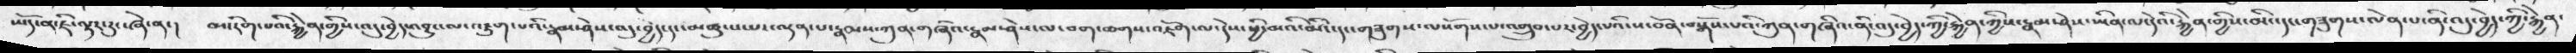ཡོད་ན་ཇི་ལྟར་རུང་ཞེ་ན་།   མ་རིག་པའི་རྐྱེན་གྱིས་འདུ་བྱེད་འབྱུང་ལ་འཇུག་པའི་རྣམ་ཤེས་འདུ་བྱེད་དང་མཚུངས་པར་ལྡན་པ་རྣམས་ཀུན་གཞིའ་རྣམ་ཤེས་ལ་བག་ཆགས་འཇོག་ལ་དེས་ཕྱི་མའི་མིང་གཟུགས་ལསོགས་པ་འགྲུབ་པར་བྱེད་པའི་ས་བོན་བསྒོས་པའི་ཀུན་གཞིའ་ན་འདུ་བྱེད་ཀྱི་རྐྱེན་ཀྱིས་རྣམ་ཤེས་ཡིན་ལ་དེའི་རྐྱེན་གྱིས་མིང་དང་གཟུགས་ལེན་པ་ནི་འདུ་བྱེད་ཀྱི་རྐྱེན་
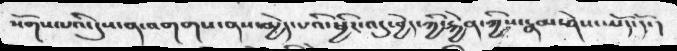སོགས་པའི་དུས་ན་འགགས་ནས་མྱེད་པའི་ཕྱིར་འདུ་བྱེད་ཀྱི་རྐྱེན་ཀྱིས་རྣམ་ཤེས་ཡོད་དོ་།
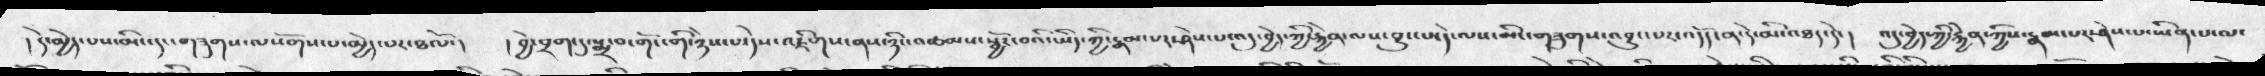། དེ་མྱེད་པས་མིང་དང་གཟུགས་ལསོགས་པ་མྱེད་པར་ཐལོ་།   ། བྱེ་བྲག་དུ་སྨྲ་བ་གོང་གི་ཉེས་པ་དེས་འཇིགས་ནས་ཉིང་འཚམས་སྦྱོར་བའི་ཡིད་ཀྱི་རྣམ་པར་ཤེས་པ་འདུ་བྱེད་ཀྱི་རྐྱེན་ལས་བྱུང་པ་དེ་ལས་མི་ན་དེ་མི་འཐད་དེ་།   འདུ་བྱེད་ཀྱི་རྐྱེན་ཀྱིས་རྣམ་པར་ཤེས་པ་ཡིན་པ་ལ་
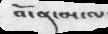བོ་ན་མ་ལ་
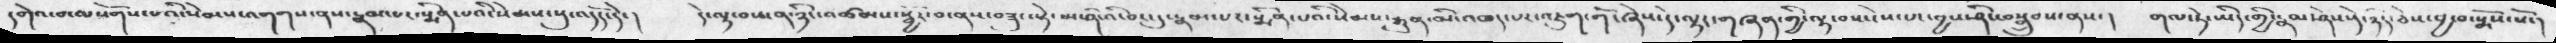དགེའ་བ་ལསོགས་པའི་སེམས་འགགས་ནས་རྣམ་པར་སྨིན་པའི་སེམས་སུ་འདོད་དེ་།   དེ་ལྟ་བས་ན་ཉིང་འཚམས་སྦྱོར་བ་ནས་བཟུང་སྟེ་མ་ཤི་འི་ཅང་དུ་རྣམ་པར་སྨིན་པའི་སེམས་རྒྱུན་མི་འཁད་པར་འཇུག་གོ་ཞེས་དེ་ལྟར་གཞན་གྱི་ལྟ་བས་ངེས་པར་བྱས་ཤིང་བསྒྲུབས་ནས་།  གལ་ཏེ་ཡིད་གྱི་རྣམ་ཤེས་དེ་ཉིད་ཅེས་བྱ་བ་སྨོས་སོ་།
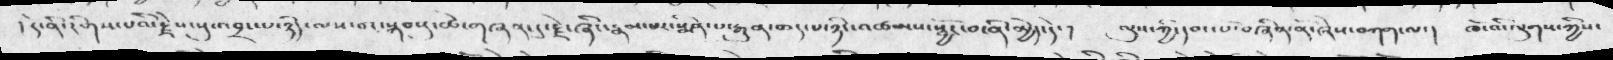།དེ་ནི་རིགས་པི་རྗེས་སུ་འབྲང་པ་ཉིད་ལས་བར་སྐབསུ་ཚེ་གཞན་དུ་རྗེ་ཞིང་རྣམ་པར་སྨིན་པ་རྒྱུན་ཆད་པ་ཉིང་འཚམས་སྦྱོར་བ་ནི་མྱེད་དེ་།  ལུས་ཀྱི་དབང་པོ་བཞིན་ནོ་ཞེས་བཀག་ལ་།  ཁོ་འི་ལུགས་ཀྱིས་
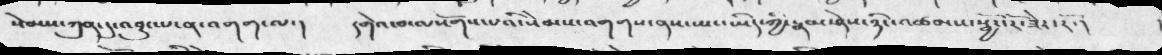སེམས་ཀུན་དུ་འབྱུང་པ་ན་འགག་ལ་།   དགེའ་བ་ལསོགས་པའི་སེམས་འགག་ནས་ཡང་ཡིད་ཀྱི་རྣམ་ཤེས་ཉིང་འཚམས་སྦྱོར་རོ་ཟེར་རོ་།
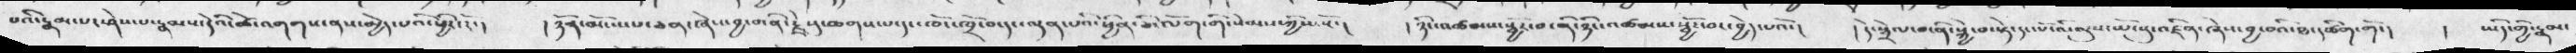པའི་རྣམ་པར་ཤེས་པ་རྣམས་དེའི་ཚེ་འགགས་ནས་མྱེད་པའི་ཕྱིར་རོ་།  ། ཉོན་མོངས་པ་ཅན་ཞེས་བྱ་བ་ནི་རྗེསུ་ཆགས་པ་དང་ཁོང་ཁྲོ་བ་དང་ལྡན་པའི་ཕྱིན་ཅི་ལོག་གི་སེམས་ཀྱིས་སོ་།  ཉིང་འཚམས་སྦྱོར་བ་ནི་ཉིང་འཚམས་སྦྱོར་བར་བྱེད་པའོ་།   ། དེ་སྦྲེལ་བ་ནི་སྐྱེ་བ་སྟེ་དང་པོ་འི་ལུས་ཡོངསུ་འཛིན་ཞེས་བྱ་བའི་ཐ་དཚིག་གོ་།   ། ཡིད་གྱི་རྣམ་
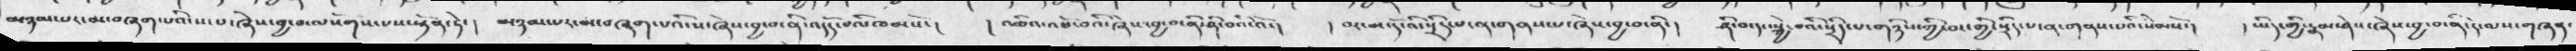མཉམ་པར་མ་བཞག་པའི་ས་པ་ཞེས་བྱ་བ་ལསོགས་པས་སྟོན་ཏེ་།   མཉམ་པར་མ་བཞག་པའི་ས་ཞེས་བྱ་བ་ནི་འདོད་པའི་ཁམསོ་།  འཆིའ་འཕོ་བའི་ཞེས་བྱ་བ་ནི་ཤི་བའི་འོ་།  ། བར་མ་དོ་འི་སྲིད་པ་ན་གནས་པ་ཞེས་བྱ་བ་ནི་།  ཤི་བ་དང་སྐྱེ་བའི་སྲིད་པ་གཉིས་ཀྱི་བར་གྱི་སྲིད་པ་ན་གནས་པའི་སེམསོ་།  ། ཡིད་གྱི་རྣམ་ཤེས་ཞེས་བྱ་བ་ནི་དེ་ལས་གཞན་
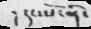། དང་པོ་ནི་
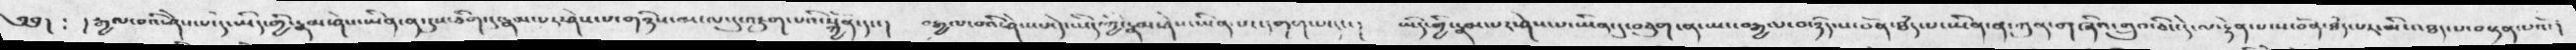༄༅། : ། རྒྱལ་བའི་ཤེས་པ་དེ་ཡིད་གྱི་རྣམ་ཤེས་ཡིན་ན་དུས་ཅིག་དུ་རྣམ་པར་ཤེས་པ་གཉིས་མ་ལ་དུ་འཇུག་པའི་སྐྱོན་དང་། བརྒྱལ་བའི་ཤེས་པ་དེ་ཡིད་ཀྱི་རྣམ་ཤེས་ཡིན་པར་དགག་པ་དང་།  ཡིད་གྱི་རྣམ་པར་ཤེས་པ་ཡིན་དུ་བཅུག་ན་ཡང་བརྒྱལ་བ་ཉིད་ས་བོན་ཐཾད་པ་ཡིན་ན་ཀུན་གཞིའ་གྲུབ་ཅིང་དེ་ལ་རྟེན་པ་ས་བོན་ཐཾད་པར་མི་འཐད་པ་བསྟན་པའོ་།
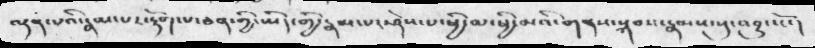ལྡན་པའི་རྣམ་པར་རྟོག་པ་ཅན་གྱི་ཡིད་གྱི་རྣམ་པར་ཤེས་པ་ཕྱི་མ་ཕྱི་མའི་གནས་སྐབས་རྣམས་སུ་འབྱུང་ངོ་།
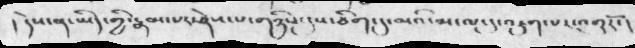། དེས་ན་ཡིད་གྱི་རྣམ་པར་ཤེས་པ་གཉིས་དུས་ཅིག་དུ་མའི་མ་ལ་དུ་འཇུག་པར་འགྱུརོ་།
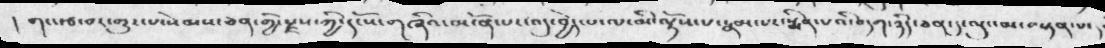། གང་རྩ་བར་གྱུར་པ་སེམས་ཅན་གྱི་རྫས་ཀྱི་དངོས་གཞིའ་མངོན་པར་འདུ་བྱེད་པ་ལ་མི་ལྟོས་པ་རྣམ་པར་སྨིན་པའི་བདག་ཉིད་ཅན་དུ་ལུང་མ་བསྟན་པ་
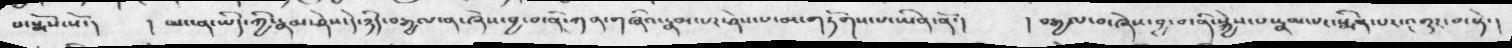པ་སྨོས་སོ་།   །  ཡང་ན་ཡིད་ཀྱི་རྣམ་ཤེས་དེ་ཉིད་བརྒྱལ་ན་ཞེས་བྱ་བ་ནི་ཀུན་གཞིའ་རྣམ་པར་ཤེས་པ་མ་གཏོགས་པ་ཡིན་ནོ་།    ། བརྒྱལ་བ་ཞེས་བྱ་བ་ནི་སྐྱེས་པ་རྣམ་པར་སྨིན་པར་འགྱུར་བ་སྟེ་།
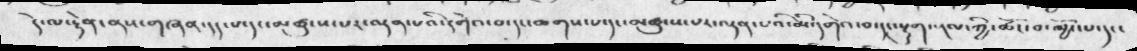དེ་ལ་རྟེན་ནས་གཞན་དད་པ་དང་མཚུངས་པར་ལྡན་པའི་དགེའ་བ་དང་ཆགས་པ་དང་མཚུངས་པར་ལྡན་པའི་མི་དགེའ་བ་དང་སྡུག་སྔལ་ཀྱི་ཚོར་བ་མྱོང་པ་དང་།
